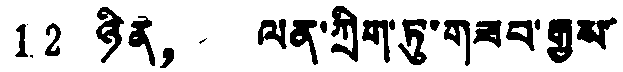12 ཉིན， ལན་ཀྲིག་ཏུ་གཟབ་རྒྱས་
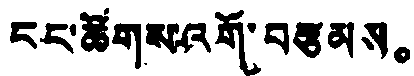ངང་ཚོགས་འགོ་བརྩམས。
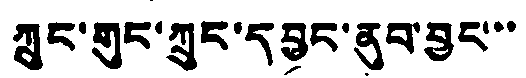ཀྲུང་གུང་ཀྲུང་དབྱང་ནུབ་བྱང་་་
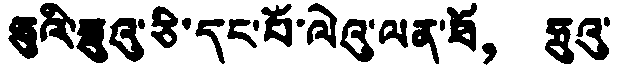ཅུའི་ཧྲུའུ་ཅི་དང་པོ་ལེའུ་ལན་ཕོ， ཧྲུའུ་
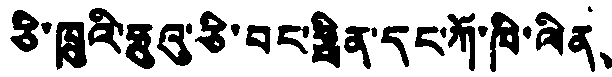ཅི་ཁྲུའི་ཧྲུའུ་ཅི་བང་ཧྥིན་དང་ཀོ་ཁི་ལིན、
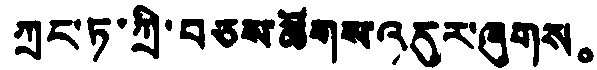ཀྲང་ཏ་ཀྲི་བཅས་ཚོགས་འདུར་ཞུགས。
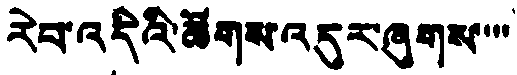རེབ་འདིའི་ཚོགས་འདུར་ཞུགས་་་་
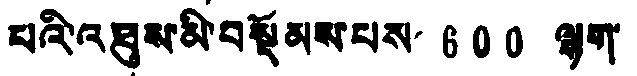པའི་འཐུས་མི་བསྡོམས་པས་ 600 ལྷག
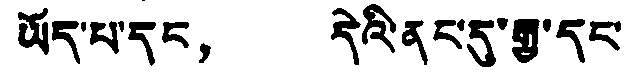ཡོད་པ་དང， དེའི་ནང་དུ་རྒྱ་དང་
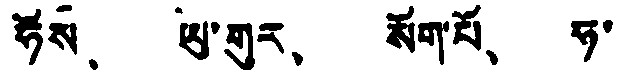ཧོས、 ཡུ་གུར、 སོག་པོ、 ཧ་
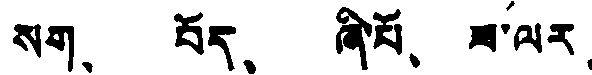སག、 བོད、 ཞི་པོ、 ཟ་ལར、
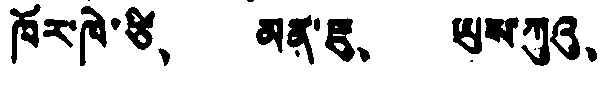ཁོར་ཁེ་ཙི、 མན་ཇུ、 ཡུས་ཀུའུ、
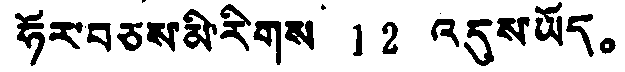ཧོར་བཅས་མི་རིགས 12 འདུས་ཡོད。
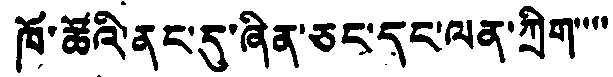ཁོ་ཚོའི་ནང་དུ་ཞིན་ཅང་དང་ལན་ཀྲིག་་་་
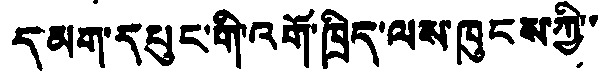དམག་དཔུང་གི་འགོ་ཁྲིད་ལས་ཁུངས་ཀྱི་
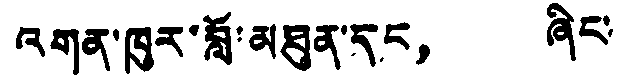འགན་ཁུར་བློ་མཐུན་དང， ཞིང་
